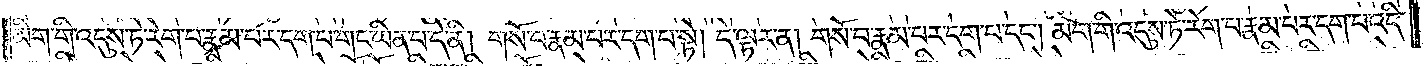མིག་གི་འདུས་ཏེ་རེག་པ་རྣམ་པར་དག་པ་གང་ཡིན་པ་དེ་ནི། གསོ་བ་རྣམ་པར་དག་པ་སྟེ། དེ་ལྟར་ན། གསོ་བ་རྣམ་པར་དག་པ་དང༌། མིག་གི་འདུས་ཏེ་རེག་པ་རྣམ་པར་དག་པ་འདི་
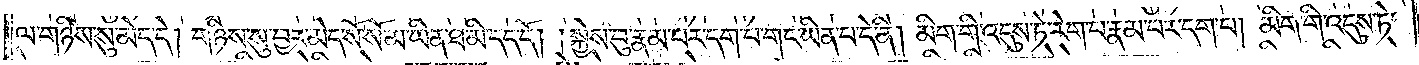ལ་གཉིས་སུ་མེད་དེ། གཉིས་སུ་བྱར་མེད་སོ་སོ་མ་ཡིན་ཐ་མི་དད་དོ། །སྐྱེས་བུ་རྣམ་པར་དག་པ་གང་ཡིན་པ་དེ་ནི། མིག་གི་འདུས་ཏེ་རེག་པ་རྣམ་པར་དག་པ། མིག་གི་འདུས་ཏེ་
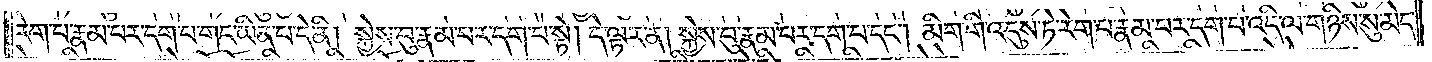རེག་པ་རྣམ་པར་དག་པ་གང་ཡིན་པ་དེ་ནི། སྐྱེས་བུ་རྣམ་པར་དག་པ་སྟེ། དེ་ལྟར་ན། སྐྱེས་བུ་རྣམ་པར་དག་པ་དང༌། མིག་གི་འདུས་ཏེ་རེག་པ་རྣམ་པར་དག་པ་འདི་ལ་གཉིས་སུ་མེད་
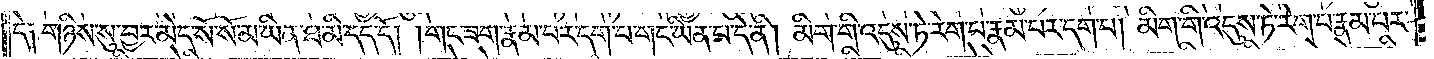དེ༑ གཉིས་སུ་བྱར་མེད་སོ་སོ་མ་ཡིན་པ་ཐ་མི་དད་དོ༎ གང་ཟག་རྣམ་པར་དག་པ་གང་ཡིན་པ་དེ་ནི། མིག་གི་འདུས་ཏེ་རེག་པ་རྣམ་པར་དག་པ། མིག་གི་འདུས་ཏེ་རེག་པ་རྣམ་པར་
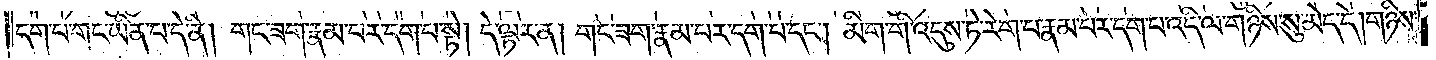དག་པ་གང་ཡིན་པ་དེ་ནི། གང་ཟག་རྣམ་པར་དག་པ་སྟེ། དེ་ལྟར་ན་གང་ཟག་རྣམ་པར་དག་པ་དང༌། མིག་གི་འདུས་ཏེ་རེག་པ་རྣམ་པར་དག་པ་འདི་ལ་གཉིས་སུ་མེད་དེ། གཉིས་
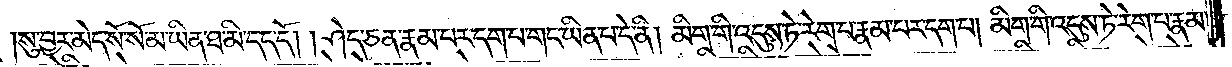སུ་བྱར་མེད་སོ་སོ་མ་ཡིན་ཐ་མི་དད་དོ། །ཤེད་ཅན་རྣམ་པར་དག་པ་གང་ཡིན་པ་དེ་ནི། མིག་གི་འདུས་ཏེ་རེག་པ་རྣམ་པར་དག་པ། མིག་གི་འདུས་ཏེ་རེག་པ་རྣམ་
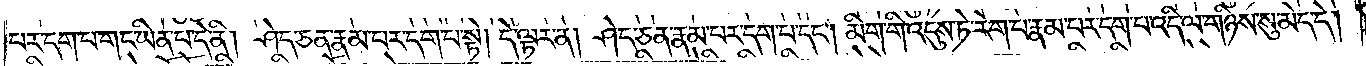པར་དག་པ་གང་ཡིན་པ་དེ་ནི། ཤེད་ཅན་རྣམ་པར་དག་པ་སྟེ། དེ་ལྟར་ན། ཤེད་ཅན་རྣམ་པར་དག་པ་དང༌། མིག་གི་འདུས་ཏེ་རེག་པ་རྣམ་པར་དག་པ་འདི་ལ་གཉིས་སུ་མེད་དེ།
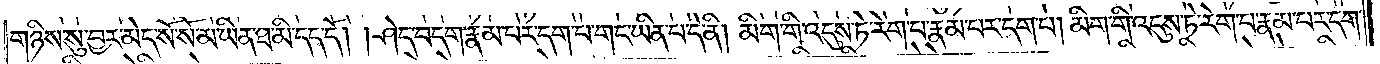གཉིས་སུ་བྱར་མེད་སོ་སོ་མ་ཡིན་ཐ་མི་དད་དོ། །ཤེད་བདག་རྣམ་པར་དག་པ་གང་ཡིན་པ་དེ་ནི། མིག་གི་འདུས་ཏེ་རེག་པ་རྣམ་པར་དག་པ། མིག་གི་འདུས་ཏེ་རེག་པ་རྣམ་པར་དག་
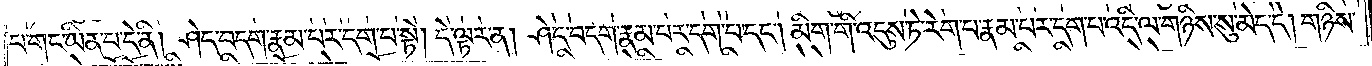པ་གང་ཡིན་པ་དེ་ནི། ཤེད་བདག་རྣམ་པར་དག་པ་སྟེ། དེ་ལྟར་ན། ཤེད་བདག་རྣམ་པར་དག་པ་དང༌། མིག་གི་འདུས་ཏེ་རེག་པ་རྣམ་པར་དག་པ་འདི་ལ་གཉིས་སུ་མེད་དེ། གཉིས་
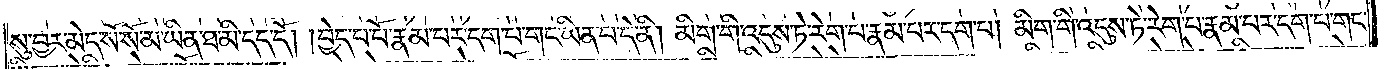སུ་བྱར་མེད་སོ་སོ་མ་ཡིན་ཐ་མི་དད་དོ། །བྱེད་པ་པོ་རྣམ་པར་དག་པ་གང་ཡིན་པ་དེ་ནི། མིག་གི་འདུས་ཏེ་རེག་པ་རྣམ་པར་དག་པ། མིག་གི་འདུས་ཏེ་རེག་པ་རྣམ་པར་དག་པ་གང་
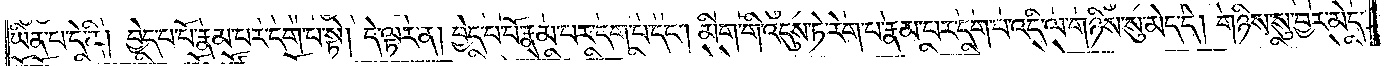ཡིན་པ་དེ་ནི། བྱེད་པ་པོ་རྣམ་པར་དག་པ་སྟེ། དེ་ལྟར་ན། བྱེད་པ་པོ་རྣམ་པར་དག་པ་དང༌། མིག་གི་འདུས་ཏེ་རེག་པ་རྣམ་པར་དག་པ་འདི་ལ་གཉིས་སུ་མེད་དེ། གཉིས་སུ་བྱར་མེད་
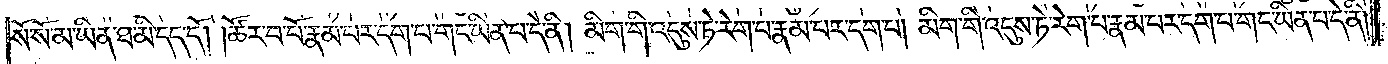སོ་སོ་མ་ཡིན་ཐ་མི་དད་དོ། །ཚོར་བ་པོ་རྣམ་པར་དག་པ་གང་ཡིན་པ་དེ་ནི། མིག་གི་འདུས་ཏེ་རེག་པ་རྣམ་པར་དག་པ། མིག་གི་འདུས་ཏེ་རེག་པ་རྣམ་པར་དག་པ་གང་ཡིན་པ་དེ་ནི།
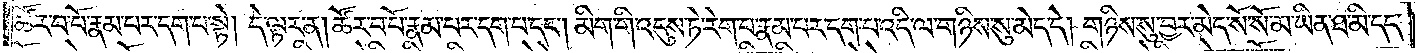ཚོར་བ་པོ་རྣམ་པར་དག་པ་སྟེ། དེ་ལྟར་ན། ཚོར་བ་པོ་རྣམ་པར་དག་པ་དང༌། མིག་གི་འདུས་ཏེ་རེག་པ་རྣམ་པར་དག་པ་འདི་ལ་གཉིས་སུ་མེད་དེ། གཉིས་སུ་བྱར་མེད་སོ་སོ་མ་ཡིན་ཐ་མི་དད་
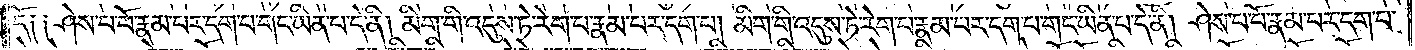དོ༑ ༑ཤེས་པ་པོ་རྣམ་པར་དག་པ་གང་ཡིན་པ་དེ་ནི། མིག་གི་འདུས་ཏེ་རེག་པ་རྣམ་པར་དག་པ། མིག་གི་འདུས་ཏེ་རེག་པ་རྣམ་པར་དག་པ་གང་ཡིན་པ་དེ་ནི། ཤེས་པ་པོ་རྣམ་པར་དག་པ་
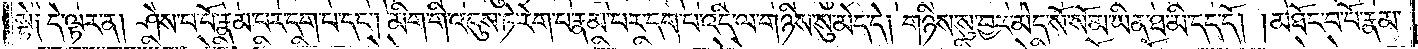སྟེ༑ དེ་ལྟར་ན། ཤེས་པ་པོ་རྣམ་པར་དག་པ་དང༌། མིག་གི་འདུས་ཏེ་རེག་པ་རྣམ་པར་དག་པ་འདི་ལ་གཉིས་སུ་མེད་དེ། གཉིས་སུ་བྱར་མེད་སོ་སོ་མ་ཡིན་ཐ་མི་དད་དོ། །མཐོང་བ་པོ་རྣམ་
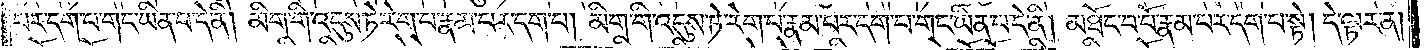པར་དག་པ་གང་ཡིན་པ་དེ་ནི། མིག་གི་འདུས་ཏེ་རེག་པ་རྣམ་པར་དག་པ། མིག་གི་འདུས་ཏེ་རེག་པ་རྣམ་པར་དག་པ་གང་ཡིན་པ་དེ་ནི། མཐོང་བ་པོ་རྣམ་པར་དག་པ་སྟེ། དེ་ལྟར་ན།
